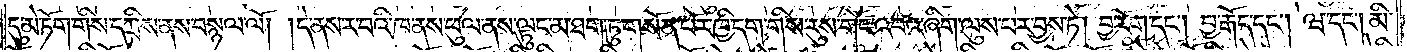དུ་མེ་ཏོག་གིས་དཀྲིས་ནས་བསྙལ་ལོ། །དེ་ནས་ར་བའི་ཁ་ནས་ཕུལ་ནས་ལྟུང་མ་ཐག་ཏུ་གསོན་པོར་ཁྱི་དག་གིས་རུས་གོང་འབའ་ཞིག་ལུས་པར་བྱས་ཏེ། བྱ་རོག་དང༌། བྱ་རྒོད་དང༌། ཝ་དང༌། མི་
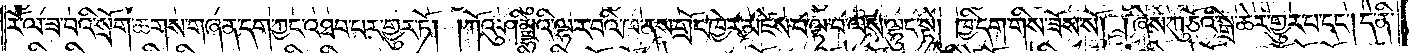རོ་ལ་ཟ་བའི་སྲོག་ཆགས་གཞན་དག་ཀྱང་འཐབ་པར་གྱུར་ཏོ། །ཀོའུ་ཤིམྦྷིའི་ལྷ་ར་བའི་ཁ་ནས་གྲོང་ཁྱེར་མཛེས་པ་ལྟ་བ་ལས་ལྷུང་སྟེ། ཁྱི་དག་གིས་ཟོས་སོ། །ཞེས་ཀུ་ཅོའི་སྒྲ་ཆེར་གྱུར་པ་དང༌། དེ་ནི་
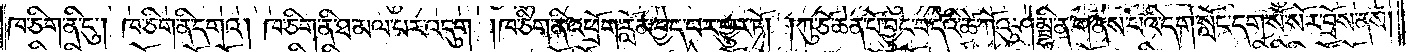ཁ་ཅིག་ནི་ངུ༌། ཁ་ཅིག་ནི་དགའ། ཁ་ཅིག་ནི་ཐ་མལ་པར་འདུག །ཁ་ཅིག་ནི་འཕྲོག་རློམ་བྱེད་པར་གྱུར་ཏོ། །ཀུ་ཅོ་ཆེན་པོ་བྱུང་བ་དེའི་ཚེ་ཀོའུ་ཤམྦྷི་ན་གནས་པའི་དགེ་སློང་དག་སོ་སོར་བྲོས་ནས།
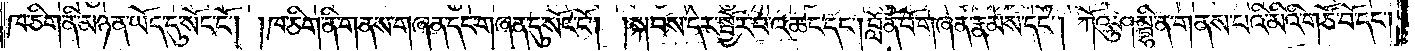ཁ་ཅིག་ནི་མཉན་ཡོད་དུ་སོང་ངོ༌། །ཁ་ཅིག་ནི་གནས་གཞན་དང་གཞན་དུ་སོང་ངོ༌། །སྐབས་དེར་སྦྱོར་བ་འཆང་དང༌། བློན་པོ་གཞན་རྣམས་དང༌། ཀོའུ་ཤམྦྷི་ན་གནས་པའི་མིའི་གཙོ་བོ་དང༌།
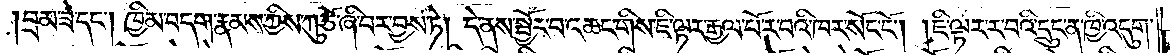བྲམ་ཟེ་དང༌། ཁྱིམ་བདག་རྣམས་ཀྱིས་ཀུ་ཅོ་ཞི་བར་བྱས་ཏེ། དེ་ནས་སྦྱོར་བ་འཆང་གིས་ཇི་ལྟར་རྒྱལ་པོ་ར་བའི་ཁར་སོང་ངོ༌། །ཇི་ལྟར་ར་བའི་དྲུང་ན་ཁྱི་འདུག་
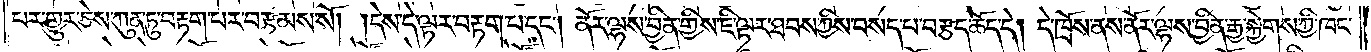པར་གྱུར་ཅེས་ཀུན་ཏུ་བརྟག་པར་བརྩམས་སོ། །དེས་དེ་ལྟར་བརྟག་པ་དང༌། ནོར་ལྷས་བྱིན་གྱིས་ཇི་ལྟར་ཐབས་ཀྱིས་བསད་པ་བརྩད་ཆོད་དེ། དེ་ཁྲོས་ནས་ནོར་ལྷས་བྱིན་རྒྱ་སྐྱེགས་ཀྱི་ཁང་
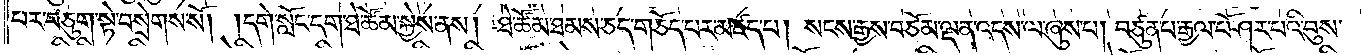པར་བཅུག་སྟེ་བསྲེགས་སོ། །དགེ་སློང་དག་ཐེ་ཚོམ་སྐྱེས་ནས། ཐེ་ཚོམ་ཐམས་ཅད་གཅོད་པར་མཛད་པ། སངས་རྒྱས་བཅོམ་ལྡན་འདས་ལ་ཞུས་པ། བཙུན་པ་རྒྱལ་པོ་ཤར་པའི་བུས་
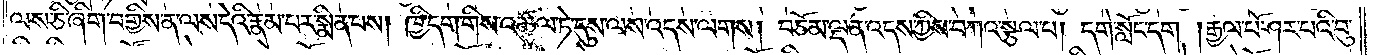ལས་ཅི་ཞིག་བགྱིས་ན་ལས་དེའི་རྣམ་པར་སྨིན་པས། ཁྱི་དག་གིས་འཚལ་ཏེ་དུས་ལས་འདས་ལགས། བཅོམ་ལྡན་འདས་ཀྱིས་བཀའ་སྩལ་པ། དགེ་སློང་དང༌། རྒྱལ་པོ་ཤར་པའི་བུ་
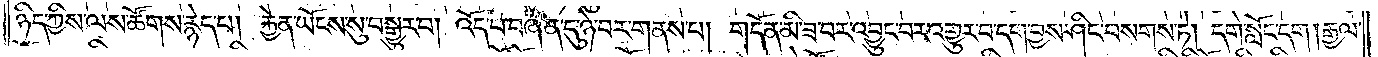ཉིད་ཀྱིས་ལས་ཚོགས་རྙེད་པ། རྐྱེན་ཡོངས་སུ་བསྒྱུར་བ། འོད་པ་བཞིན་དུ་ཉེ་བར་གནས་པ། གདོན་མི་ཟ་བར་འབྱུང་བར་འགྱུར་བ་དག་བྱས་ཤིང་བསགས་ཏེ། དགེ་སློང་དག། རྒྱལ་
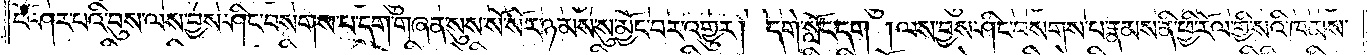པོ་ཤར་པའི་བུས་ལས་བྱས་ཤིང་བསགས་པ་དག་གཞན་སུས་སོ་སོར་ཉམས་སུ་མྱོང་བར་འགྱུར། དགེ་སློང་དག །ལས་བྱས་ཤིང་བསགས་པ་རྣམས་ནི་ཕྱི་རོལ་གྱི་སའི་ཁམས་
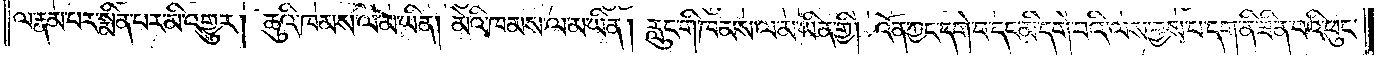ལ་རྣམ་པར་སྨིན་པར་མི་འགྱུར། ཆུའི་ཁམས་ལ་མ་ཡིན། མེའི་ཁམས་ལ་མ་ཡིན། རླུང་གི་ཁམས་ལ་མ་ཡིན་གྱི། འོན་ཀྱང་དགེ་བ་དང་མི་དགེ་བའི་ལས་བྱས་པ་དག་ནི་ཟིན་པའི་ཕུང་
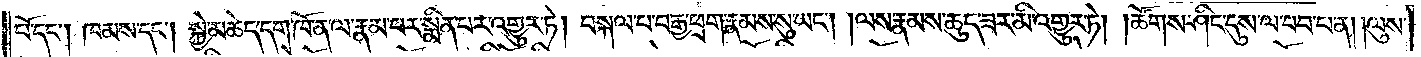པོ་དང༌། ཁམས་དང༌། སྐྱེ་མཆེད་དག་ཁོ་ན་ལ་རྣམ་པར་སྨིན་པར་འགྱུར་ཏེ། བསྐལ་པ་བརྒྱ་ཕྲག་རྣམས་སུ་ཡང༌། །ལས་རྣམས་ཆུད་ཟར་མི་འགྱུར་ཏེ། །ཚོགས་ཤིང་དུས་ལ་བབ་པ་ན། །ལུས་
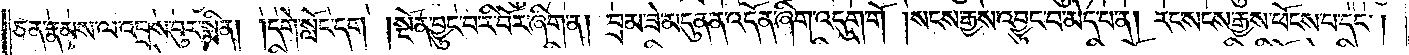ཅན་རྣམས་ལ་འབྲས་བུར་སྨིན། །དགེ་སློང་དག །སྔོན་འབྱུང་བ་རི་བོར་ཞིག་ན། བྲམ་ཟེ་མདུན་ན་འདོན་ཞིག་འདུག་གོ །སངས་རྒྱས་འབྱུང་བ་མེད་པ་ན། རང་སངས་རྒྱས་ཕོངས་པ་དང༌།
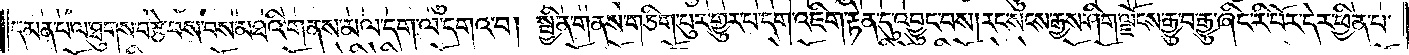དམན་པ་ལ་ཐུགས་བརྩེ་བས་བས་མཐའི་གནས་མལ་དག་ལ་དགའ་བ། སྦྱིན་གནས་གཅིག་པུར་གྱུར་པ་དག་འཇིག་རྟེན་དུ་འབྱུང་བས། རང་སངས་རྒྱས་ཤིག་ལྗོངས་རྒྱུ་བ་རྒྱུ་ཞིང་རི་པོར་དེར་ཕྱིན་པ་
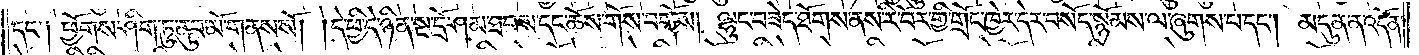དང༌། ཕྱོགས་ཤིག་ཏུ་ནུབ་མོ་གནས་སོ། །དེ་ཕྱི་དེ་ཉིན་སྔ་དྲོ་ཤམ་ཐབས་དང་ཆོས་གོས་བགོས། ལྷུང་བཟེད་ཐོགས་ནས་རི་བོར་གྱི་གྲོང་ཁྱེར་དེར་བསོད་སྙོམས་ལ་ཞུགས་པ་དང༌། མདུན་ན་འདོན་
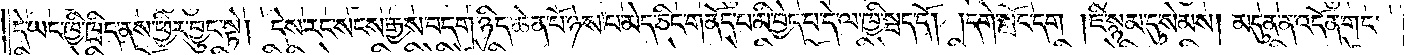དེ་ཡང་ཁྱི་ཁྲིད་ནས་ཕྱིར་བྱུང་སྟེ། དེས་རང་སངས་རྒྱས་བདག་ཉིད་ཆེན་པོ་ཉེས་པ་མེད་ཅིང་གནོད་པ་མི་བྱེད་པ་དེ་ལ་ཁྱི་སྦད་དོ། །དགེ་སློང་དག །ཇི་སྙམ་དུ་སེམས། མདུན་ན་འདོན་གང་
